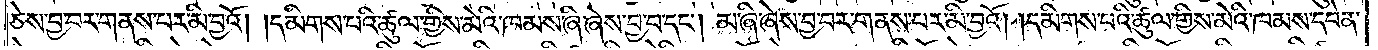ཅེས་བྱ་བར་གནས་པར་མི་བྱའོ། །དམིགས་པའི་ཚུལ་གྱིས་མེའི་ཁམས་ཞི་ཞེས་བྱ་བ་དང༌། མ་ཞི་ཞེས་བྱ་བར་གནས་པར་མི་བྱའོ། ། དམིགས་པའི་ཚུལ་གྱིས་མེའི་ཁམས་དབེན་
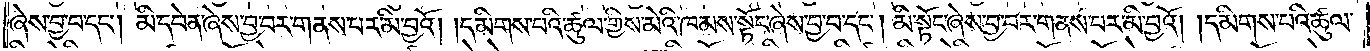ཞེས་བྱ་བ་དང༌། མི་དབེན་ཞེས་བྱ་བར་གནས་པར་མི་བྱའོ། །དམིགས་པའི་ཚུལ་གྱིས་མེའི་ཁམས་སྟོང་ཞེས་བྱ་བ་དང༌། མི་སྟོང་ཞེས་བྱ་བར་གནས་པར་མི་བྱའོ། །དམིགས་པའི་ཚུལ་
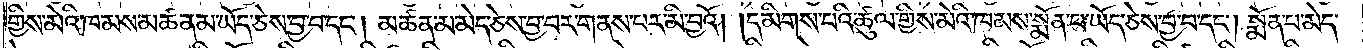གྱིས་མེའི་ཁམས་མཚན་མ་ཡོད་ཅེས་བྱ་བ་དང༌། མཚན་མ་མེད་ཅེས་བྱ་བར་གནས་པར་མི་བྱའོ། །དམིགས་པའི་ཚུལ་གྱིས་མེའི་ཁམས་སྨོན་པ་ཡོད་ཅེས་བྱ་བ་དང༌། སྨོན་པ་མེད་
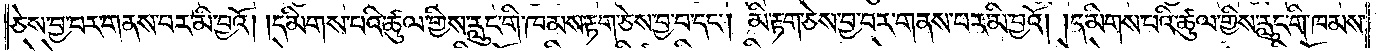ཅེས་བྱ་བར་གནས་པར་མི་བྱའོ། །དམིགས་པའི་ཚུལ་གྱིས་རླུང་གི་ཁམས་རྟག་ཅེས་བྱ་བ་དང༌། མི་རྟག་ཅེས་བྱ་བར་གནས་པར་མི་བྱའོ། །དམིགས་པའི་ཚུལ་གྱིས་རླུང་གི་ཁམས་
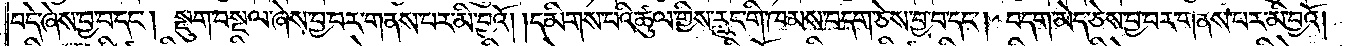བདེ་ཞེས་བྱ་བ་དང༌། སྡུག་བསྔལ་ཞེས་བྱ་བར་གནས་པར་མི་བྱའོ། །དམིགས་པའི་ཚུལ་གྱིས་རླུང་གི་ཁམས་བདག་ཅེས་བྱ་བ་དང༌། བདག་མེད་ཅེས་བྱ་བར་གནས་པར་མི་བྱའོ། །
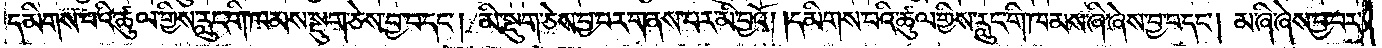དམིགས་པའི་ཚུལ་གྱིས་རླུང་གི་ཁམས་སྡུག་ཅེས་བྱ་བ་དང༌། མི་སྡུག་ཅེས་བྱ་བར་གནས་པར་མི་བྱའོ། །དམིགས་པའི་ཚུལ་གྱིས་རླུང་གི་ཁམས་ཞི་ཞེས་བྱ་བ་དང༌། མ་ཞི་ཞེས་བྱ་བར་
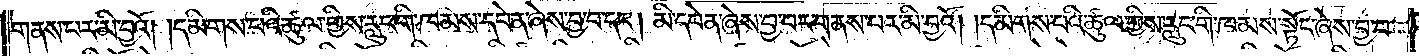གནས་པར་མི་བྱའོ། །དམིགས་པའི་ཚུལ་གྱིས་རླུང་གི་ཁམས་དབེན་ཞེས་བྱ་བ་དང༌། མི་དབེན་ཞེས་བྱ་བར་གནས་པར་མི་བྱའོ། །དམིགས་པའི་ཚུལ་གྱིས་རླུང་གི་ཁམས་སྟོང་ཞེས་བྱ་བ་
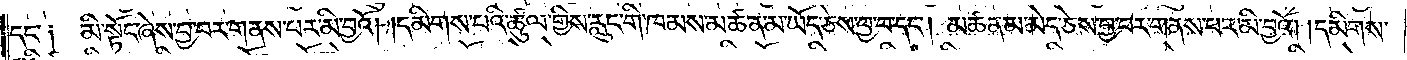དང༌། མི་སྟོང་ཞེས་བྱ་བར་གནས་པར་མི་བྱའོ། །དམིགས་པའི་ཚུལ་གྱིས། རླུང་གི་ཁམས་མཚན་མ་ཡོད་ཅེས་བྱ་བ་དང༌། མཚན་མ་མེད་ཅེས་བྱ་བར་གནས་པར་མི་བྱའོ། །དམིགས་
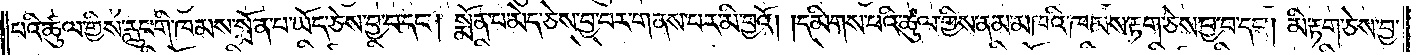པའི་ཚུལ་གྱིས་རླུང་གི་ཁམས་སྨོན་པ་ཡོད་ཅེས་བྱ་བ་དང༌། སྨོན་པ་མེད་ཅེས་བྱ་བར་གནས་པར་མི་བྱའོ། །དམིགས་པའི་ཚུལ་གྱིས་ནམ་མཁའི་ཁམས་རྟག་ཅེས་བྱ་བ་དང༌། མི་རྟག་ཅེས་བྱ་
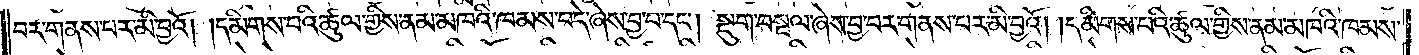བར་གནས་པར་མི་བྱའོ། །དམིགས་པའི་ཚུལ་གྱིས། ནམ་མཁའི་ཁམས་བདེ་ཞེས་བྱ་བ་དང༌། སྡུག་བསྔལ་ཞེས་བྱ་བར་གནས་པར་མི་བྱའོ། །དམིགས་པའི་ཚུལ་གྱིས་ནམ་མཁའི་ཁམས་
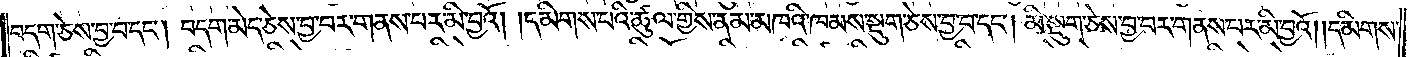བདག་ཅེས་བྱ་བ་དང༌། བདག་མེད་ཅེས་བྱ་བར་གནས་པར་མི་བྱའོ། །དམིགས་པའི་ཚུལ་གྱིས་ནམ་མཁའི་ཁམས་སྡུག་ཅེས་བྱ་བ་དང༌། མི་སྡུག་ཅེས་བྱ་བར་གནས་པར་མི་བྱའོ། །དམིགས་
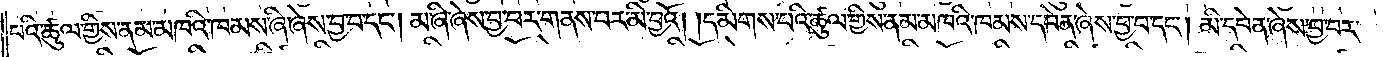པའི་ཚུལ་གྱིས་ནམ་མཁའི་ཁམས་ཞི་ཞེས་བྱ་བ་དང༌། མ་ཞི་ཞེས་བྱ་བར་གནས་པར་མི་བྱའོ། །དམིགས་པའི་ཚུལ་གྱིས་ནམ་མཁའི་ཁམས་དབེན་ཞེས་བྱ་བ་དང༌། མི་དབེན་ཞེས་བྱ་བར་
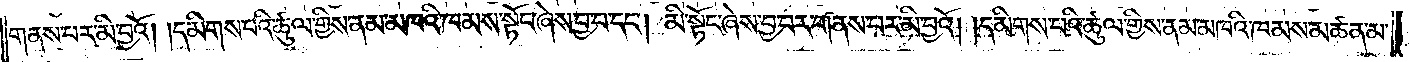གནས་པར་མི་བྱའོ། །དམིགས་པའི་ཚུལ་གྱིས་ནམ་མཁའི་ཁམས་སྟོང་ཞེས་བྱ་བ་དང༌། མི་སྟོང་ཞེས་བྱ་བར་གནས་པར་མི་བྱའོ། །དམིགས་པའི་ཚུལ་གྱིས་ནམ་མཁའི་ཁམས་མཚན་མ་
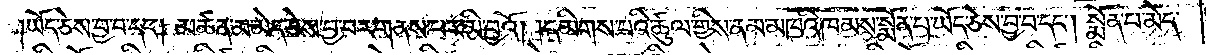ཡོད་ཅེས་བྱ་བ་དང༌། མཚན་མ་མེད་ཅེས་བྱ་བར་གནས་པར་མི་བྱའོ། །དམིགས་པའི་ཚུལ་གྱིས་ནམ་མཁའི་ཁམས་སྨོན་པ་ཡོད་ཅེས་བྱ་བ་དང༌། སྨོན་པ་མེད་
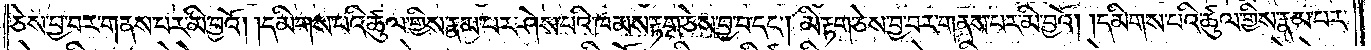ཅེས་བྱ་བར་གནས་པར་མི་བྱའོ། །དམིགས་པའི་ཚུལ་གྱིས་རྣམ་པར་ཤེས་པའི་ཁམས་རྟག་ཅེས་བྱ་བ་དང༌། མི་རྟག་ཅེས་བྱ་བར་གནས་པར་མི་བྱའོ། །དམིགས་པའི་ཚུལ་གྱིས་རྣམ་པར་
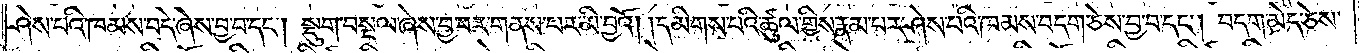ཤེས་པའི་ཁམས་བདེ་ཞེས་བྱ་བ་དང༌། སྡུག་བསྔལ་ཞེས་བྱ་བར་གནས་པར་མི་བྱའོ། །དམིགས་པའི་ཚུལ་གྱིས་རྣམ་པར་ཤེས་པའི་ཁམས་བདག་ཅེས་བྱ་བ་དང༌། བདག་མེད་ཅེས་
